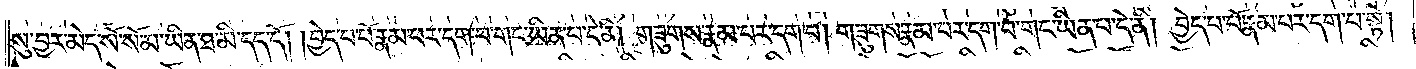སུ་བྱར་མེད་སོ་སོ་མ་ཡིན་ཐ་མི་དད་དོ། །བྱེད་པ་པོ་རྣམ་པར་དག་པ་གང་ཡིན་པ་དེ་ནི། གཟུགས་རྣམ་པར་དག་པ། གཟུགས་རྣམ་པར་དག་པ་གང་ཡིན་པ་དེ་ནི། བྱེད་པ་པོ་རྣམ་པར་དག་པ་སྟེ།
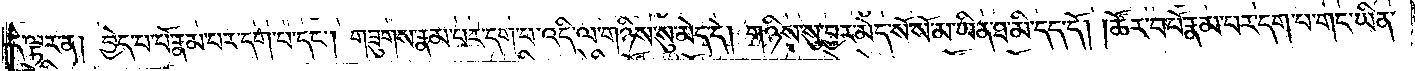དེ་ལྟར་ན། བྱེད་པ་པོ་རྣམ་པར་དག་པ་དང༌། གཟུགས་རྣམ་པར་དག་པ་འདི་ལ་གཉིས་སུ་མེད་དེ། གཉིས་སུ་བྱར་མེད་སོ་སོ་མ་ཡིན་ཐ་མི་དད་དོ། །ཚོར་བ་པོ་རྣམ་པར་དག་པ་གང་ཡིན་
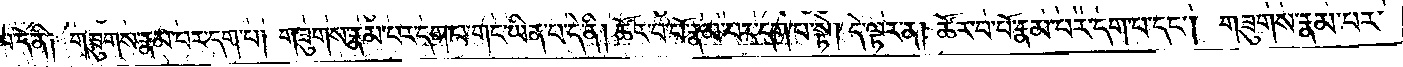པ་དེ་ནི༑ གཟུགས་རྣམ་པར་དག་པ། གཟུགས་རྣམ་པར་དག་པ་གང་ཡིན་པ་དེ་ནི། ཚོར་བ་པོ་རྣམ་པར་དག་པ་སྟེ། དེ་ལྟར་ན། ཚོར་བ་པོ་རྣམ་པར་དག་པ་དང༌། གཟུགས་རྣམ་པར་
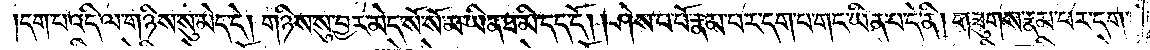དག་པ་འདི་ལ་གཉིས་སུ་མེད་དེ་གཉིས་སུ་བྱར་མེད་སོ་སོ་མ་ཡིན་ཐ་མི་དད་དོ། །ཤེས་པ་པོ་རྣམ་པར་དག་པར་གང་ཡིན་པ་དེ་ནི། གཟུགས་རྣམ་པར་དག་
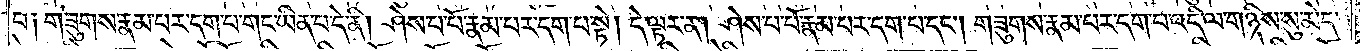པ༑ གཟུགས་རྣམ་པར་དག་པ་གང་ཡིན་པ་དེ་ནི། ཤེས་པ་པོ་རྣམ་པར་དག་པ་སྟེ། དེ་ལྟར་ན། ཤེས་པ་པོ་རྣམ་པར་དག་པ་དང༌། གཟུགས་རྣམ་པར་དག་པ་འདི་ལ་གཉིས་སུ་མེད་
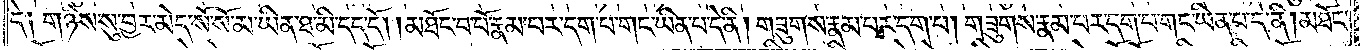དེ༑ གཉིས་སུ་བྱར་མེད་སོ་སོ་མ་ཡིན་ཐ་མི་དད་དོ། །མཐོང་བ་པོ་རྣམ་པར་དག་པ་གང་ཡིན་པ་དེ་ནི། གཟུགས་རྣམ་པར་དག་པ། གཟུགས་རྣམ་པར་དག་པ་གང་ཡིན་པ་དེ་ནི། མཐོང་
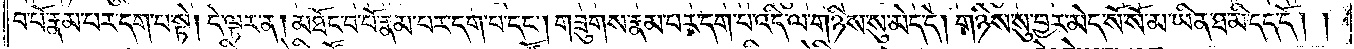བ་པོ་རྣམ་པར་དག་པ་སྟེ། དེ་ལྟར་ན། མཐོང་བ་པོ་རྣམ་པར་དག་པ་དང༌། གཟུགས་རྣམ་པར་དག་པ་འདི་ལ་གཉིས་སུ་མེད་དེ། གཉིས་སུ་བྱར་མེད་སོ་སོ་མ་ཡིན་ཐ་མི་དད་དོ། །
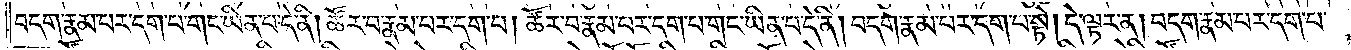བདག་རྣམ་པར་དག་པ་གང་ཡིན་པ་དེ་ནི། ཚོར་བ་རྣམ་པར་དག་པ། ཚོར་བ་རྣམ་པར་དག་པ་གང་ཡིན་པ་དེ་ནི། བདག་རྣམ་པར་དག་པ་སྟེ། དེ་ལྟར་ན། བདག་རྣམ་པར་དག་པ་
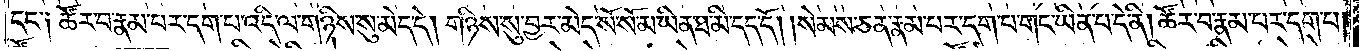དང་༑ ཚོར་བ་རྣམ་པར་དག་པ་འདི་ལ་གཉིས་སུ་མེད་དེ། གཉིས་སུ་བྱར་མེད་སོ་སོ་མ་ཡིན་ཐ་མི་དད་དོ། །སེམས་ཅན་རྣམ་པར་དག་པ་གང་ཡིན་པ་དེ་ནི། ཚོར་བ་རྣམ་པར་དག་པ།
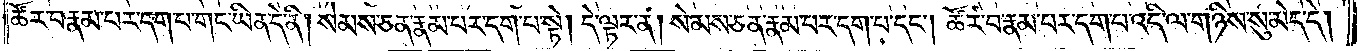ཚོར་བ་རྣམ་པར་དག་པ་གང་ཡིན་པ་དེ་ནི། སེམས་ཅན་རྣམ་པར་དག་པ་སྟེ། དེ་ལྟར་ན། སེམས་ཅན་རྣམ་པར་དག་པ་དང༌། ཚོར་བ་རྣམ་པར་དག་པ་འདི་ལ་གཉིས་སུ་མེད་དེ།
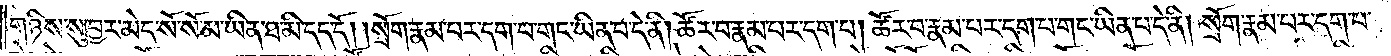གཉིས་སུ་བྱར་མེད་སོ་སོ་མ་ཡིན་ཐ་མི་དད་དོ། །སྲོག་རྣམ་པར་དག་པ་གང་ཡིན་པ་དེ་ནི། ཚོར་བ་རྣམ་པར་དག་པ། ཚོར་བ་རྣམ་པར་དག་པ་གང་ཡིན་པ་དེ་ནི། སྲོག་རྣམ་པར་དག་པ་
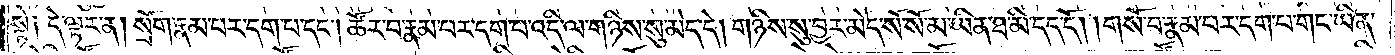སྟེ༑ དེ་ལྟར་ན། སྲོག་རྣམ་པར་དག་པ་དང༌། ཚོར་བ་རྣམ་པར་དག་པ་འདི་ལ་གཉིས་སུ་མེད་དེ། གཉིས་སུ་བྱར་མེད་སོ་སོ་མ་ཡིན་ཐ་མི་དད་དོ། །གསོ་བ་རྣམ་པར་དག་པ་གང་ཡིན་
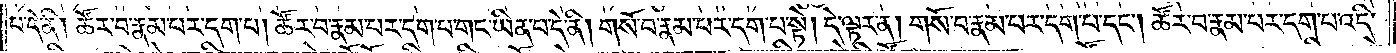པ་དེ་ནི། ཚོར་བ་རྣམ་པར་དག་པ། ཚོར་བ་རྣམ་པར་དག་པ་གང་ཡིན་པ་དེ་ནི། གསོ་བ་རྣམ་པར་དག་པ་སྟེ། དེ་ལྟར་ན། གསོ་བ་རྣམ་པར་དག་པ་དང༌། ཚོར་བ་རྣམ་པར་དག་པ་འདི་
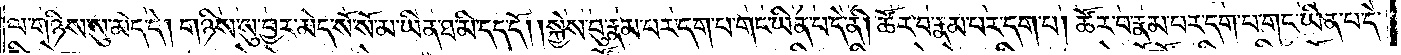ལ་གཉིས་སུ་མེད་དེ། གཉིས་སུ་བྱར་མེད་སོ་སོ་མ་ཡིན་ཐ་མི་དད་དོ། །སྐྱེས་བུ་རྣམ་པར་དག་པ་གང་ཡིན་པ་དེ་ནི། ཚོར་བ་རྣམ་པར་དག་པ། ཚོར་བ་རྣམ་པར་དག་པ་གང་ཡིན་པ་དེ་
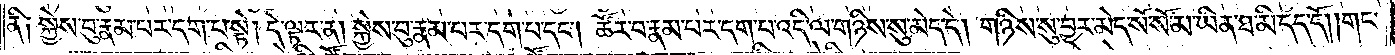ནི༑ སྐྱེས་བུ་རྣམ་པར་དག་པ་སྟེ། དེ་ལྟར་ན། སྐྱེས་བུ་རྣམ་པར་དག་པ་དང༌། ཚོར་བ་རྣམ་པར་དག་པ་འདི་ལ་གཉིས་སུ་མེད་དེ། གཉིས་སུ་བྱར་མེད་སོ་སོ་མ་ཡིན་ཐ་མི་དད་དོ། །གང་
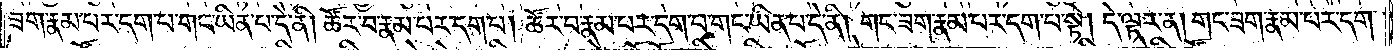ཟག་རྣམ་པར་དག་པ་གང་ཡིན་པ་དེ་ནི། ཚོར་བ་རྣམ་པར་དག་པ། ཚོར་བ་རྣམ་པར་དག་པ་གང་ཡིན་པ་དེ་ནི། གང་ཟག་རྣམ་པར་དག་པ་སྟེ། དེ་ལྟར་ན། གང་ཟག་རྣམ་པར་དག་
